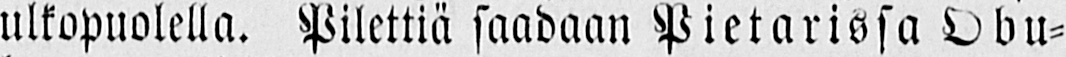ulkopuolella. Pilettiä saadaan Pietarissa Obu-
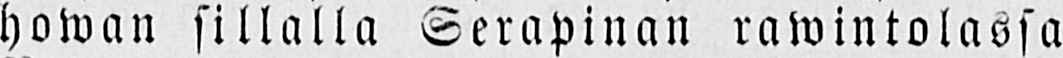howan sillalla Serapinan rawintolassa
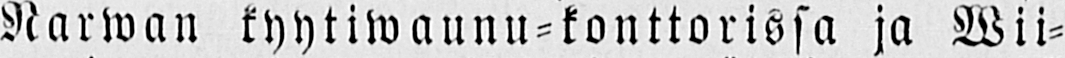Narwan kyytiwaunu-konttorissa ja Wii-
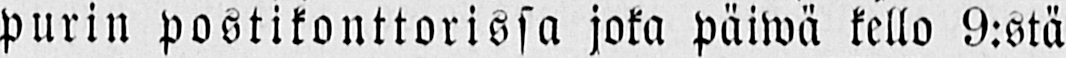purin postikonttorissa joka päiwä kello 9:stä
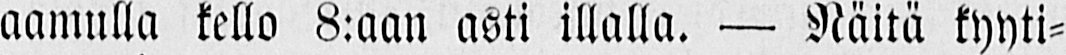aamulla kello 8:aan asti illalla. — Näitä kyyti-
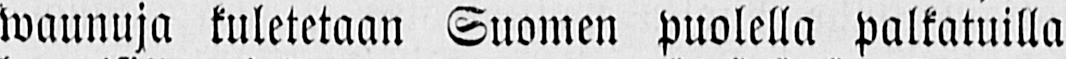waunuja kuletetaan Suomen puolella palkatuilla
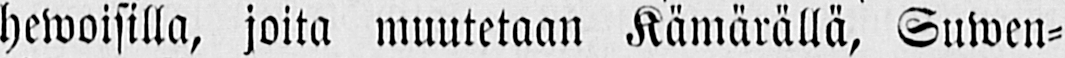hewoisilla, joita muutetaan Kämärällä, Suwen-
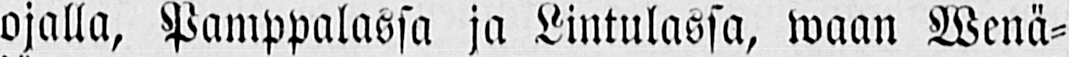ojalla, Pamppalassa ja Lintulassa, waan Wenä-
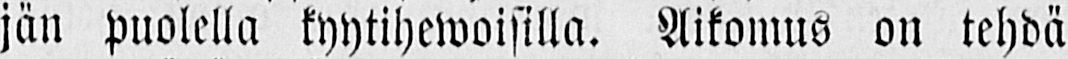jän puolella kyytihewoisilla. Aikomus on tehdä
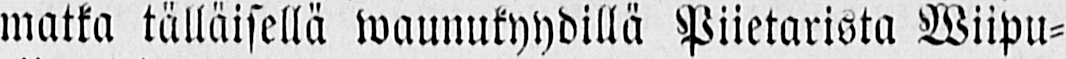matka tälläisellä waunukyydillä Piietarista Wiipu-
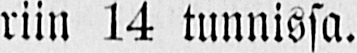riin 14 tunnissa.
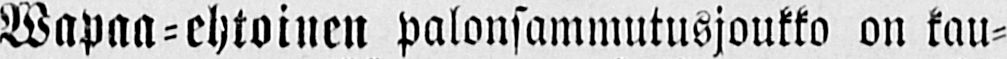Wapaa-ehtoinen palonsammutusjoukko on kau-
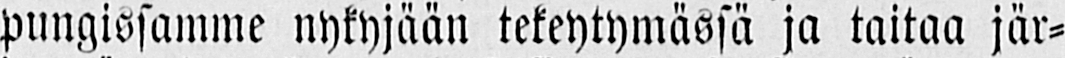pungissamme nykyjään tekeytymässä ja taitaa jär-
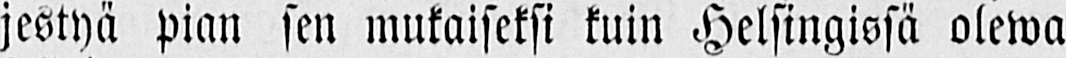jestyä pian sen mukaiseksi kuin Helsingissä olewa
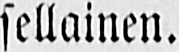sellainen.
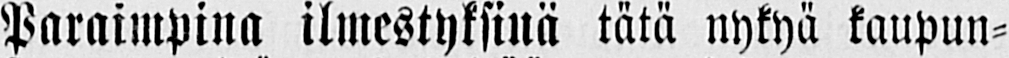Paraimpina ilmestyksinä tätä nykyä kaupun-
